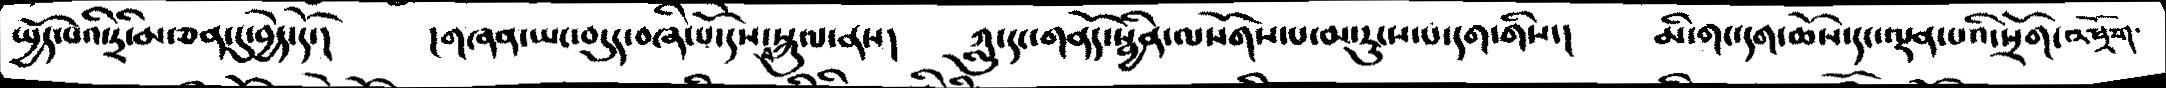སྤྱོད་པའི་དྲི་མ་ཅན་དུ་བྱེད་དོ་།   །གཞན་ཡང་བདུད་བཞི་པོ་དེས་སྐུལ་ནས།   ཀླུ་དང་གནོད་སྦྱིན་ལསོགས་པ་མ་རུངས་པ་དག་གིས་།   མི་གང་དག་ཆོས་དང་ལྡན་པའི་སྲོག་འཕྲོག་
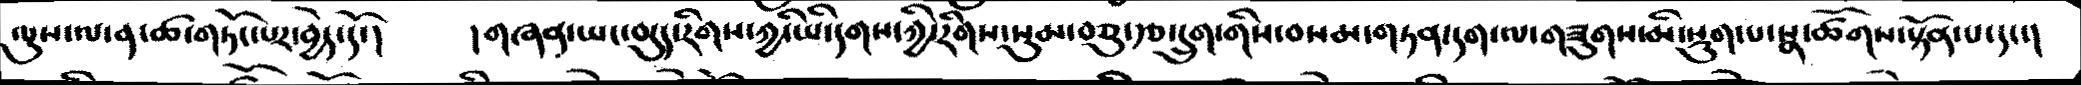ལུས་ལ་ན་ཚ་གཏོང་པར་བྱེད་དོ་།   །གཞན་ཡང་བདུད་རིགས་ཀྱི་ཡི་དགས་ཀྱི་རིགས་སུམ་བཅུ་རྩ་དྲུག་གིས་བསམ་གཏན་དག་ལ་གཟུགས་མི་སྡུག་པ་སྣ་ཚོགས་སྟོན་པ་དང་།
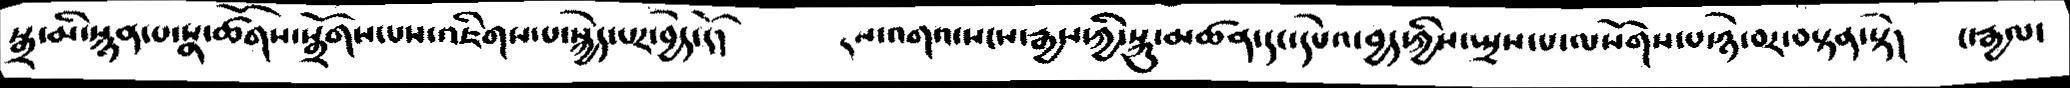སྒྲ་མི་སྙན་པ་སྣ་ཚོགས་སྒྲོགས་པས་འཇིགས་པ་སྐྱེད་པར་བྱེད་དོ།     རས་འགའ་སངས་རྒྱས་ཀྱི་སྐུ་མཚན་དང་དཔེའ་བྱད་ཀྱིས་སྤྲས་པ་ལསོགས་པ་ཉེ་བར་བསྟན་སྟེ།    ང་རྒྱལ་
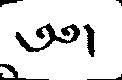༄༅།
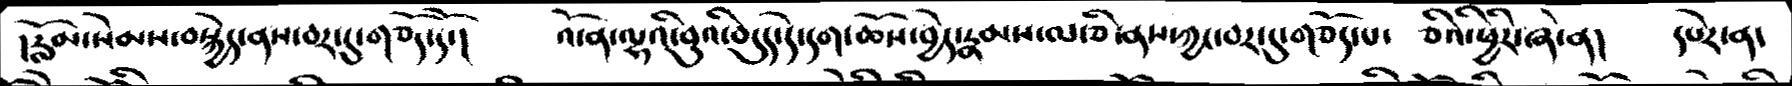།རློམ་སེམས་བསྐྱེད་ནས་བར་དུ་གཅོད་དོ་།     འོ་ན་ལྷའི་བུའི་བདུད་དེ་དག་ཆོས་བྱེད་རྣམས་ལ་ཅི་ནས་ཀྱང་བར་དུ་གཅོད་པ་  ཅིའི་ཕྱིར་ཞེ་ན།   དཔེར་ན་
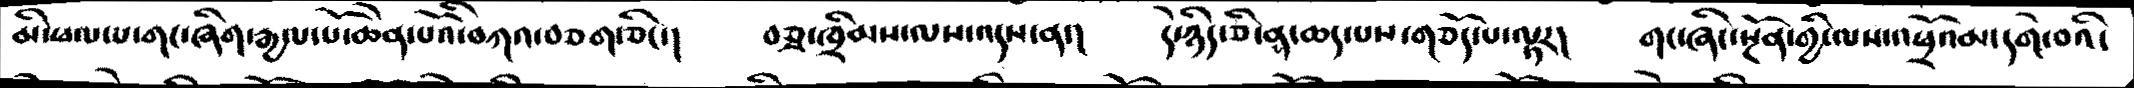མི་ཕལ་པ་གང་ཞིག་རྒྱལ་པོ་ཆེན་པོའི་བཀའ་བཅག་ཅིང་།    བཅའ་ཁྲིམས་ལས་འདས་ན་།   དེ་ཉིད་ཅི་ནས་ཆད་པས་གཅོད་པ་ལྟར།    གང་ཞིང་སྔོན་གྱི་ལས་འཕྲོའམ་དགེ་བའི་
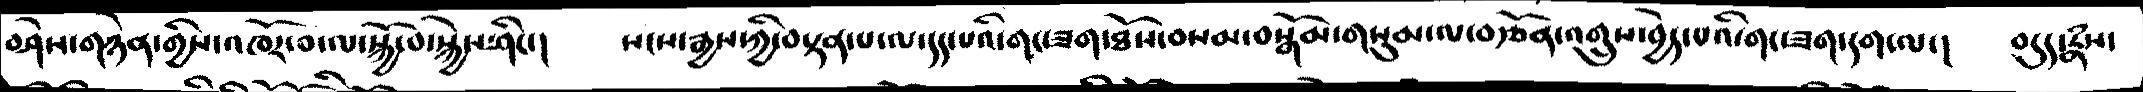བཤེས་གཉེན་གྱིས་འཁོར་བ་ལ་སྐྱོ་བ་སྐྱེས་ཤིང་།    སངས་རྒྱས་ཀྱི་བསྟན་པ་ལ་དད་པའི་གང་ཟག་ཐོས་བསམ་བསྒོམ་གསུམ་ལ་བརྩོན་འགྲུས་བྱེད་པའི་གང་ཟག་དག་ལ་།   བདུད་རྣཾས་
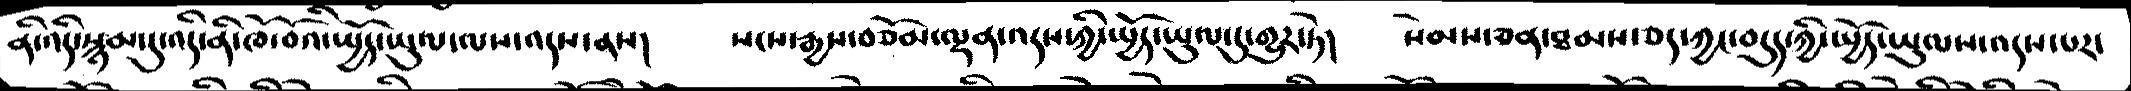ནི་འདི་སྙམ་དུ་འདི་ནི་ཁོ་བོའི་སྤྱོད་ཡུལ་ལས་འདས་ནས།     སངས་རྒྱས་བཅོམ་ལྡན་འདས་ཀྱི་སྤྱོད་ཡུལ་དུ་གྱུར་ཏེ།   སེམས་ཅན་ཐམས་ཅད་ཀྱང་བདུད་ཀྱི་སྤྱོད་ཡུལས་འདས་པར་
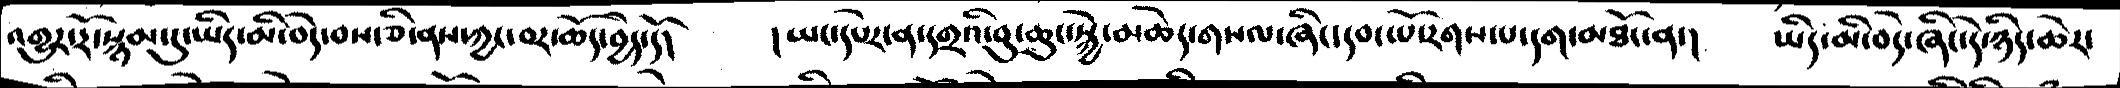འགྱུར་རོ་སྙམ་དུ་ཡིད་མི་བདེ་བས་ཅི་ནས་ཀྱང་བར་ཆོད་བྱེད་དོ།    །ཡང་དཔེར་ན་དགྲའི་བུ་ཆུང་སྐྱེ་མཆེད་གསལ་ཞིང་དབང་པོ་རགས་པ་དག་མཐོང་ན་།    ཡིད་མི་བདེ་ཞིང་དེ་ཉིད་ཆེར་
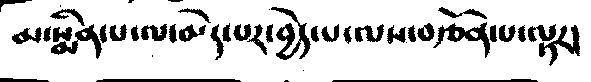མ་སྨིན་པ་ལ་མེད་པར་བྱེད་པ་ལས་བརྩོན་པ་ལྟར།
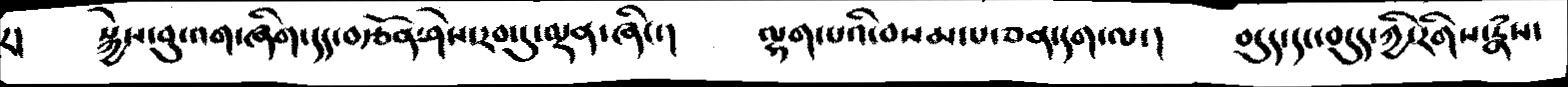ར།    སྐྱེས་བུ་འག་ཞིག་དད་བརྩོན་ཤེས་རབ་དུ་ལྡན་ཞིང་།      ལྷག་པའི་བསམ་པ་ཅན་དག་ལ་།    བདུད་དང་བདུད་ཀྱི་རིགས་རྣཾས་
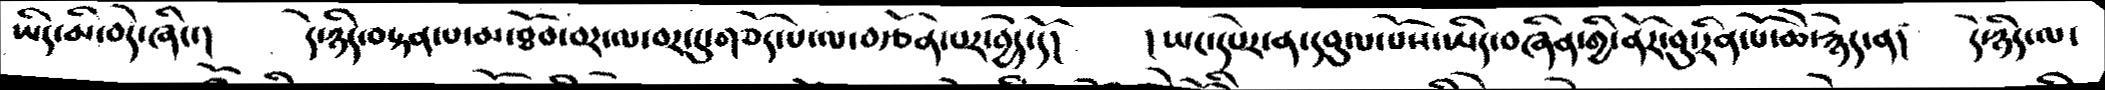ཡིད་མི་བདེ་ཞིང་།     དེ་ཉིད་བསྟན་པ་མ་ཐོབ་བར་ལ་བར་དུ་གཅོད་པ་ལ་བརྩོན་པར་བྱེད་དོ།   །ཡང་དཔེར་ན་དབུལ་པོས་ཡིད་བཞིན་གྱི་ནོར་བུ་རིན་པོ་ཆེ་རྙེད་ན།   དེ་ཉིད་ལ་
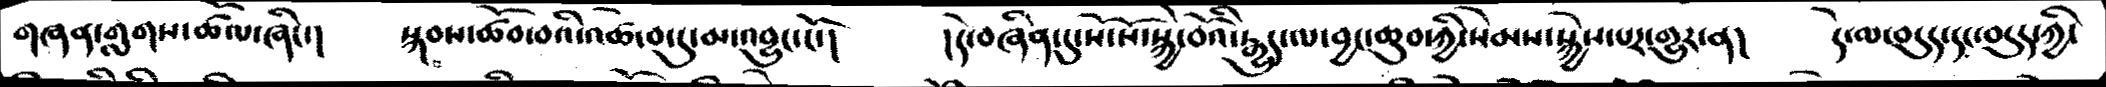གཞན་གླགས་ཚོལ་ཞིང་།   སྐབས་ཚོབ་པའི་འཚེ་བ་དུ་མ་འབྱུང་ངོ་།   །དེ་བཞིན་དུ་སོ་སོ་སྐྱེ་བོའི་རྒྱུད་ལ་བྱང་ཆུབ་ཀྱི་སེམས་སྐྱེས་པར་འགྱུར་ན།  དེ་ལ་བདུད་དང་བདུད་ཀྱི་
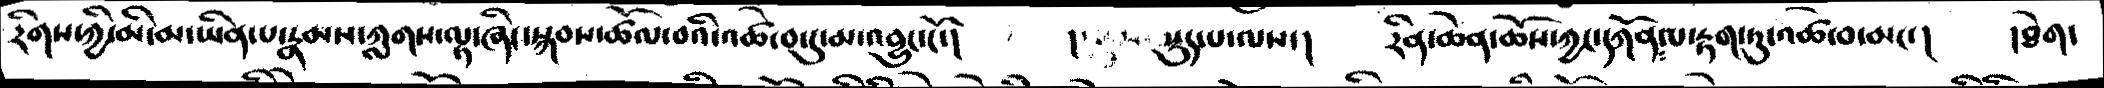རིགས་ཀྱི་མི་མ་ཡིན་པ་རྣམས་ཀླགས་ལྟ་ཞིང་སྐབས་ཚོལ་བའི་འཚེ་བ་དུ་མ་འབྱུང་ངོ་།   །སྡུད་པ་ལས་།   རིན་ཆེན་ཆོས་ཀྱང་དཀོན་ལ་རྟག་ཏུ་འཚེ་བ་མང་།   །ཐེག་
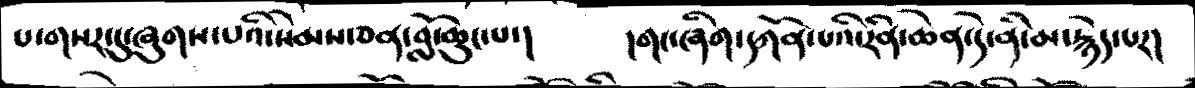པ་གསར་དུ་ཞུགས་པའི་སེམས་ཅན་བློ་ཆུང་པ་།   །གང་ཞིག་དཀོན་པའི་རིན་ཆེན་དེ་ནི་མ་རྙེད་པར།
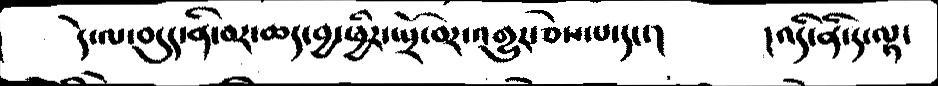དེ་ལ་བདུད་ནི་བར་ཆད་བྱ་ཕྱིར་སྤྲོ་བར་འགྱུར་ཅེས་པ་དངང་།   །འདི་ནི་ད་ལྟ་
